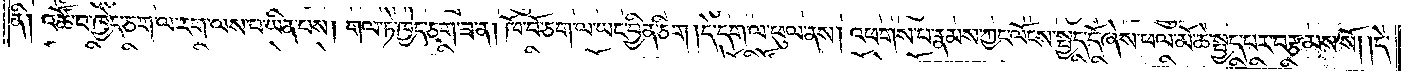ནི། འཚོ་བ་ཁྱེད་ཅག་ལ་རག་ལས་པ་ཡིན་པས། གལ་ཏེ་ཁྱེད་ཅག་ཟ་ན། ཁོ་བོ་ཅག་ལ་ཡང་བྱིན་ཅིག །དེ་དག་ལ་ཕུལ་ནས། འཕགས་པ་རྣམས་ཀྱང་ལོངས་སྤྱོད་དོ་ཞེས་ཕལ་མོ་ཆེ་སྤྱད་པར་བརྩམས་སོ། །དེ་
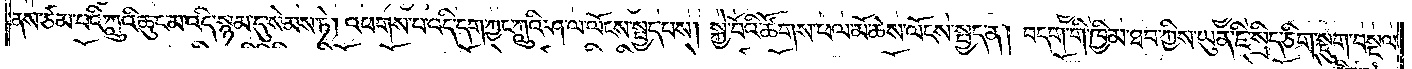ནས་ཙམ་པའི་ཀླུའི་ཆུང་མ་འདི་སྙམ་དུ་སེམས་ཏེ། འཕགས་པ་འདི་དག་ཀྱང་ཀླུའི་ཤ་ལ་ལོངས་སྤྱད་པས། སྐྱེ་བོའི་ཚོགས་ཕལ་མོ་ཆེས་ལོངས་སྤྱད་ན། བདག་གི་ཁྱིམ་ཐབ་ཀྱིས་ཡུན་ཇི་སྲིད་ཅིག་སྡུག་བསྔལ་
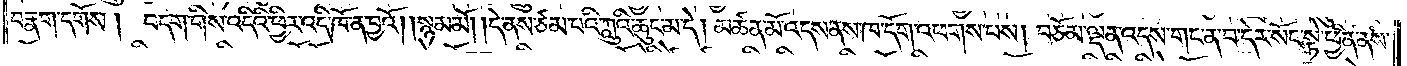བརྣག་དགོས། བདག་གིས་འདིའི་ཕྱིར་འདི་ཁོ་ན་བྱའོ། །སྙམ་མོ། །དེ་ནས་ཙམ་པའི་ཀླུའི་ཆུང་མ་དེ། མཚན་མོ་འདས་ནས་ཁ་དོག་འཕགས་པས། བཅོམ་ལྡན་འདས་གང་ན་བ་དེར་སོང་སྟེ་ཕྱིན་ནས་
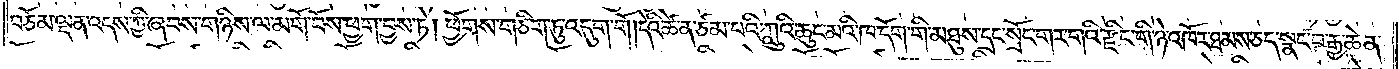བཅོམ་ལྡན་འདས་ཀྱི་ཞབས་གཉིས་ལ་མགོ་བོས་ཕྱག་བྱས་ཏེ། ཕྱོགས་གཅིག་ཏུ་འདུག་གོ། དེའི་ཚེ་ན་ཙམ་པའི་ཀླུའི་ཆུང་མའི་ཁ་དོག་གི་མཐུས་དྲང་སྲོང་གར་གའི་རྫིང་གི་ཉེ་འཁོར་ཐམས་ཅད་སྣང་བ་རྒྱ་ཆེན་
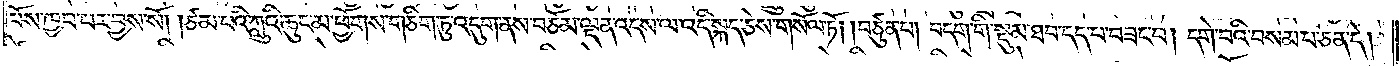པོས་ཁྱབ་པར་བྱས་སོ། །ཙམ་པའི་ཀླུའི་ཆུང་མ་ཕྱོགས་གཅིག་ཏུ་འདུག་ནས་བཅོམ་ལྡན་འདས་ལ་འདི་སྐད་ཅེས་གསོལ་ཏོ། །བཙུན་པ། བདག་གི་སྡུམ་ཐབ་དད་པ་བཟང་བ། དགེ་བའི་བསམ་པ་ཅན་དེ།
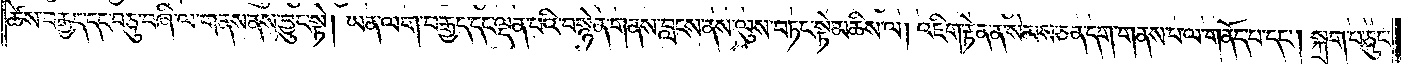ཚེས་བརྒྱད་དང་བཅུ་བཞི་ལ་གནས་ནས་བྱུང་སྟེ། ཡན་ལག་བརྒྱད་དང་ལྡན་པའི་བསྙེན་གནས་བླངས་ནས་ལུས་བཏང་སྟེ་མཆིས་ལ། འཇིག་རྟེན་ན་སེམས་ཅན་དག་གནས་པ་ལ་གནོད་པ་དང༌། སྐྲག་པ་ཅུང་
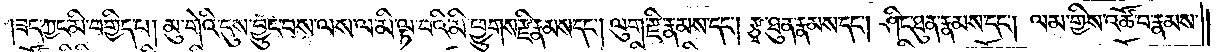ཟད་ཀྱང་མི་བགྱིད་པ། མུ་གེའི་དུས་བྱུང་བས་ལས་ལ་མི་ལྟ་བའི་མི་ཕྱུགས་རྫི་རྣམས་དང༌། ལུག་རྫི་རྣམས་དང༌། རྩྭ་ཐུན་རྣམས་དང༌། ཤིང་ཐུན་རྣམས་དང༌། ལམ་གྱིས་འཚོ་བ་རྣམས་
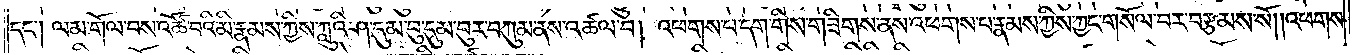དང༌། ལམ་གོལ་བས་འཚོ་བའི་མི་རྣམས་ཀྱིས་ཀླུའི་ཤ་དུམ་བུ་དུམ་བུར་བཀུམ་ནས་འཚལ་བ། འཕགས་པ་དག་གིས་གཟིགས་ནས་འཕགས་པ་རྣམས་ཀྱིས་ཀྱང་གསོལ་བར་བརྩམས་སོ། །འཕགས་
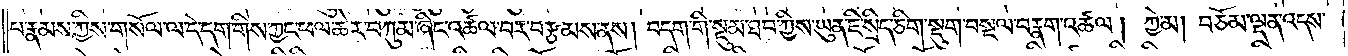པ་རྣམས་ཀྱིས་གསོལ་ལ་དེ་དག་གིས་ཀྱང་ཕལ་ཆེར་བཀུམ་ཞིང་འཚལ་བར་བརྩམས་ནས། བདག་གི་སྡུམ་ཐབ་ཀྱིས་ཡུན་ཇི་སྲིད་ཅིག་སྡུག་བསྔལ་བརྣག་འཚལ། ཀྱེ་མ། བཅོམ་ལྡན་འདས་
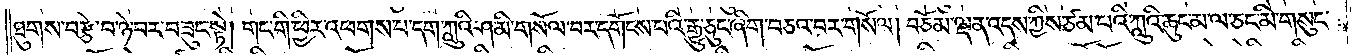ཐུགས་བརྩེ་བ་ཉེ་བར་བཟུང་སྟེ། གང་གི་ཕྱིར་འཕགས་པ་དག་ཀླུའི་ཤ་མི་གསོལ་བར་དགོངས་པའི་རྒྱུ་ཅུང་ཞིག་བཅའ་བར་གསོལ། བཅོམ་ལྡན་འདས་ཀྱིས་ཙམ་པའི་ཀླུའི་ཆུང་མ་ལ་ཅང་མི་གསུང་
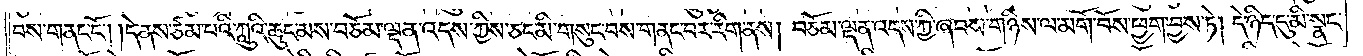བས་གནང་ངོ༌། །དེ་ནས་ཙམ་པའི་ཀླུའི་ཆུང་མས་བཅོམ་ལྡན་འདས་ཀྱིས་ཅང་མི་གསུང་བས་གནང་བར་རིག་ནས། བཅོམ་ལྡན་འདས་ཀྱི་ཞབས་གཉིས་ལ་མགོ་བོས་ཕྱག་བྱས་ཏེ། དེ་ཉིད་དུ་མི་སྣང་
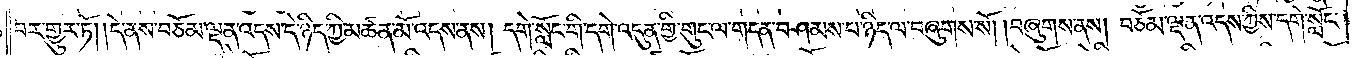བར་གྱུར་ཏོ། །དེ་ནས་བཅོམ་ལྡན་འདས་དེ་ཉིད་ཀྱི་མཚན་མོ་འདས་ནས། དགེ་སློང་གི་དགེ་འདུན་གྱི་གུང་ལ་གདན་བཤམས་པ་ཉིད་ལ་བཞུགས་སོ། །བཞུགས་ནས། བཅོམ་ལྡན་འདས་ཀྱིས་དགེ་སློང་
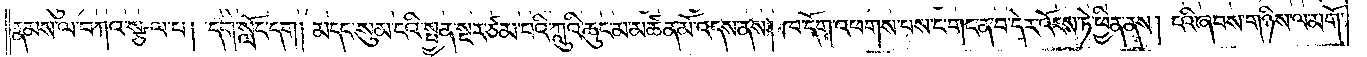རྣམས་ལ་བཀའ་སྩལ་པ། དགེ་སློང་དག །མདང་སུམ་ངའི་སྤྱན་སྔར་ཙམ་པའི་ཀླུའི་ཆུང་མ་མཚན་མོ་འདས་ནས། ཁ་དོག་འཕགས་པས་ང་གང་ན་བ་དེར་འོངས་ཏེ་ཕྱིན་ནས། ངའི་ཞབས་གཉིས་ལ་མགོ་
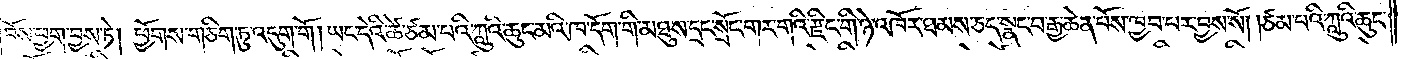བོས་ཕྱག་བྱས་ཏེ། ཕྱོགས་གཅིག་ཏུ་འདུག་གོ །ཡང་དེའི་ཚེ་ཙམ་པའི་ཀླུའི་ཆུང་མའི་ཁ་དོག་གི་མཐུས་དྲང་སྲོང་གར་གའི་རྫིང་གི་ཉེ་འཁོར་ཐམས་ཅད་སྣང་བ་རྒྱ་ཆེན་པོས་ཁྱབ་པར་བྱས་སོ། །ཙམ་པའི་ཀླུའི་ཆུང་
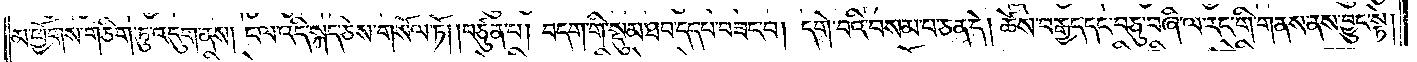མ་ཕྱོགས་གཅིག་ཏུ་འདུག་ནས། ང་ལ་འདི་སྐད་ཅེས་གསོལ་ཏོ། །བཙུན་པ། བདག་གི་སྡུམ་ཐབ་དད་པ་བཟང་བ། དགེ་བའི་བསམ་པ་ཅན་དེ། ཚེས་བརྒྱད་དང་བཅུ་བཞི་ལ་རང་གི་གནས་ནས་བྱུང་སྟེ།
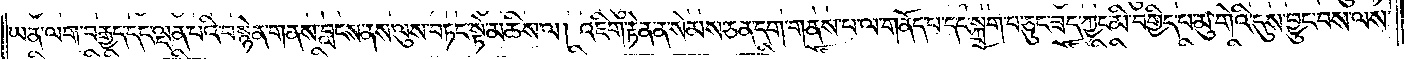ཡན་ལག་བརྒྱད་དང་ལྡན་པའི་བསྙེན་གནས་བླངས་ནས་ལུས་བཏང་སྟེ་མཆིས་ལ། འཇིག་རྟེན་ན་སེམས་ཅན་དག་གནས་པ་ལ་གནོད་པ་དང་སྐྲག་པ་ཅུང་ཟད་ཀྱང་མི་བགྱིད་པ་མུ་གེའི་དུས་བྱུང་བས་ལས་
